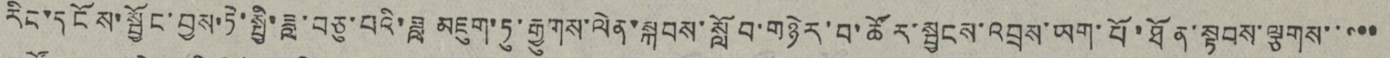རིང་དངོས་སྦྱོང་བྱས་ཏེ་སྤྱི་ཟླ་བཅུ་བའི་ཟླ མཇུག་ཏུ་རྒྱུགས་ལེན་སྐབས་སློབ་གཉེར་བ་ཚོར་སྦྱངས་འབྲས་ཡག་པོ་ཐོན་སྟབས་ལྕགས་་་་་
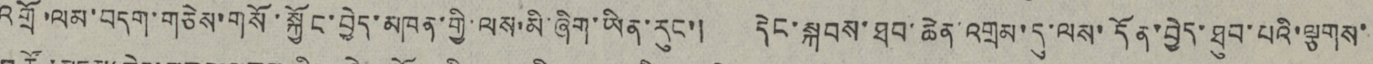འགྲོ་ལམ་བདག་གཅེས་གསོ་སྐྱོང་བྱེད་མཁན་གྱི་ལས་མི་ཞིག་ཡིན་རུང་། དེང་སྐབས་ཐབ་ཆེན་འགྲམ་དུ་ལས་དོན་བྱེད་ཐུབ་པའི་ལྕགས་
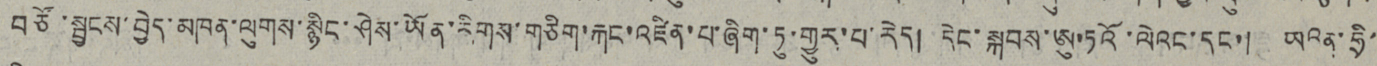བཙོ་སྦྱངས་བྱེད་མཁན་ལུགས་སྙིང་ཤེས་ཡོན་རིགས་གཅིག་རྐང་འཛིན་པ་ཞིག་ཏུ་གྱུར་པ་རེད། དེང་སྐབས་ཨུ་ཏའོ་ལེའང་དང་། ཡའན་ཧྲི་
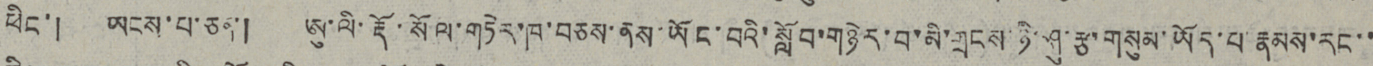ཕིང་། ཡངས་པ་ཅན་། ཨུ་ལི་རྡོ་སོལ་གཏེར་ཁ་བཅས་ནས་ཡོང་བའི་སློབ་གཉེར་བ་མི་གྲངས་ཉི་ཤུ་རྩ་གསུམ་ཡོད་པ་རྣམས་རང་་
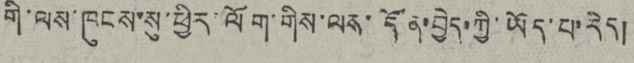གི་ལས་ཁུངས་སུ་ཕྱིར་ལོག་གིས་ལན་དོན་བྱེད་ཀྱི་ཡོད་པ་རེད།
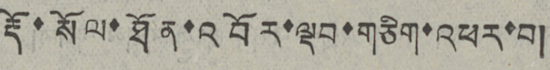རྡོ་སོལ་ཐོན་འབོར་ལྡབ་གཅིག་འཕར་བ།
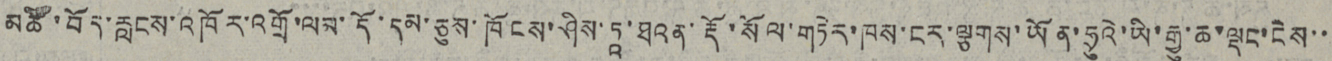མཚོ་བོད་རླངས་འཁོར་འགྲོ་ལམ་དོ་དམ་ཅུས་ཁོངས་ཤིས་ཏཱ་ཐའན་རྡོ་སོལ་གཏེར་ཁས་ངར་ལྕགས་ཡོན་ཧྲུའེ་ཡི་རྒྱུ་ཆ་ལྡང་ངེས་་
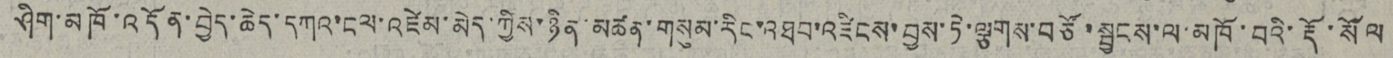ཤིག་མཁོ་འདོན་བྱེད་ཆེད་དཀའ་ངལ་འཛེམ་མེད་ཀྱིས་ཉིན་མཚན་གསུམ་རིང་འཐབ་འཛིངས་བྱས་ཏེ་ལྕགས་བཙོ་སྦྱངས་ལ་མཁོ་བའི་རྡོ་སོལ
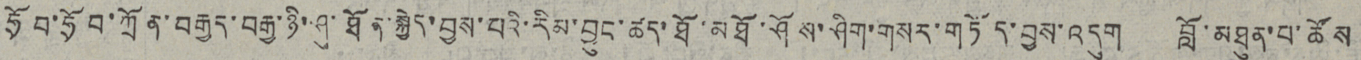ཧྲོབ་ཧྲོབ་ཀྲོན་བརྒྱད་བརྒྱ་ཉི་ཤུ་ཐོན་སྐྱེད་བྱས་པའི་རིམ་བྱུང་ཚད་ཐོ་མཐོ་ཤོས་ཤིག་གསར་གཏོད་བྱས་འདུག བློ་མཐུན་པ་ཚོས་
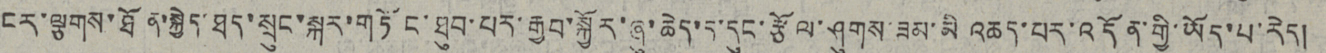ངར་ལྕགས་ཐོན་སྐྱེད་ཐད་སྲུང་སྐར་གཏོང་ཐུབ་པར་རྒྱབ་སྐྱོར་ཞུ་ཆེད་ད་དུང་རྩོལ་ཤུགས་ཟམ་མི འཆད་པར་འདོན་གྱི་ཡོད་པ་རེད།
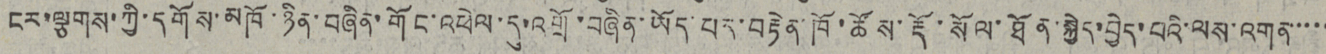ངར་ལྕགས་ཀྱི་དགོས་མཁོ་ཉིན་བཞིན་གོང་འཕེལ་དུ་འགྲོ་བཞིན་ཡོད་པར་བརྟེན་ཁོ་ཚོས་རྡོ་སོལ་ཐོན་སྐྱེད་བྱེད་པའི་ལས་འགན་་་་་
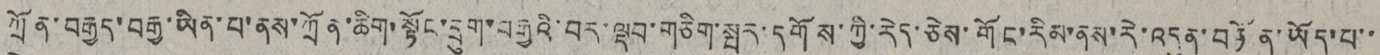ཀྲོན་བརྒྱད་བརྒྱ་ཡིན་པ་ནས་ཀྲོན་ཆིག་སྟོང་དྲུག་བརྒྱའི་བར་ལྡབ་གཅིག་སྤར་དགོས་ཀྱི་རེད་ཅེས་གོང་རིམ་ནས་རེ་འདུན་བཏོན་ཡོད་པ་་
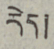རེད།
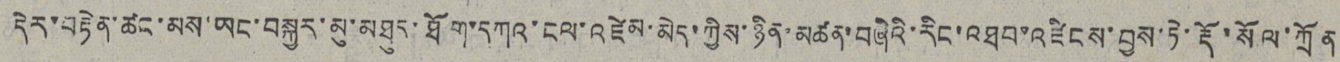དེར་བརྟེན་ཚང་མས་ཡང་བསྐྱར་མུ་མཐུད་ཐོག་དཀའ་ངལ་འཛེམ་མེད་ཀྱིས་ཉིན་མཚན་བཞིའི་རིང་འཐབ་འཛིངས་བྱས་ཏེ་རྡོ་སོལ་ཀྲོན
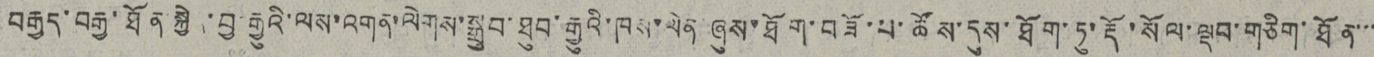བརྒྱད་བརྒྱ་ཐོན་སྐྱེན་བྱ་རྒྱུའི་ལས་འགན་ལེགས་སྒྲུབ་ཐུབ་རྒྱུའི་ཁས་ལེན་ཞུས་ཐོག་བཟོ་པ་ཚོས་དུས་ཐོག་ཏུ་རྡོ་སོལ་ལྡབ་གཅིག་ཐོན་་་
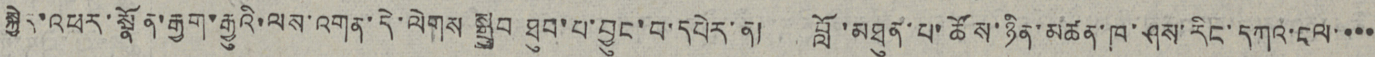སྐྱེད་འཕར་སྣོན་རྒྱག་རྒྱུའི་ལས་འགན་དེ་ལེགས སྒྲུབ ཐུབ་པ་བྱུང་བ་དཔེར་ན། བློ་མཐུན་པ་ཚོས་ཉིན་མཚན་ཁ་ཤས་རིང་དཀའ་ངལ་་་་
